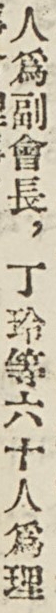人爲副會長，丁玲等六十人爲理
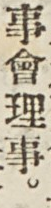事會理事。
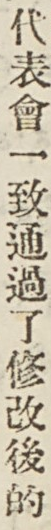代表會一致通過了修改後的
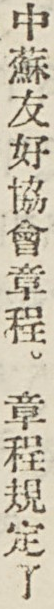中蘇友好協會章程。章程規定了
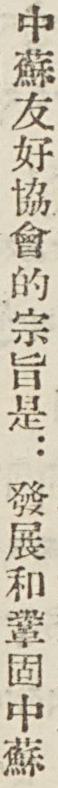中蘇友好協會的宗旨是：發展和鞏固中蘇
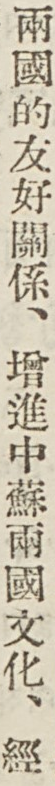兩國的友好關係、增進中蘇兩國文化、經
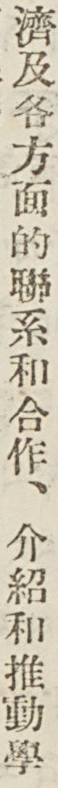濟及各方面的聯系和合作、介紹和推動學
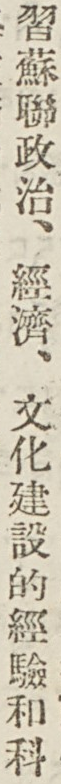習蘇聯政治、經濟、文化建設的經驗和科
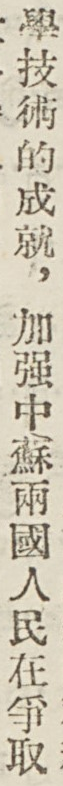學技術的成就，加強中蘇兩國人民在爭取
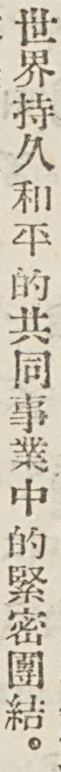世界持久和平的共同事業中的緊密團結。
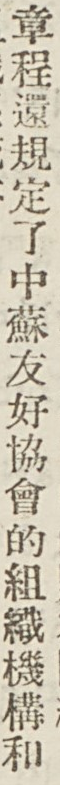章程還規定了中蘇友好協會的組織機構和
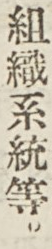組織系統等。
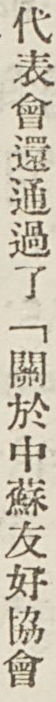代表會還通過了「關於中蘇友好協會
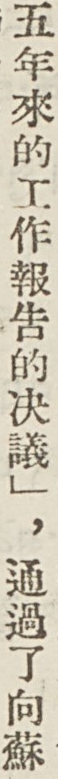五年來的工作報告的決議」。通過了向蘇
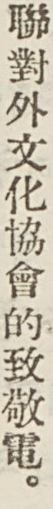聯對外文化協會的致敬電。
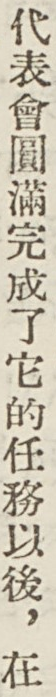代表會圓滿完成了它的任務以後，在
